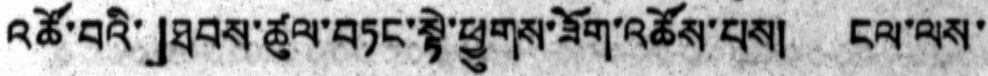འཚོ་བའི་」ཐབས་ཚུལ་བཏང་སྟེ་ཕྱུགས་ཟོག་འཚོས་པས། ངལ་ལས་
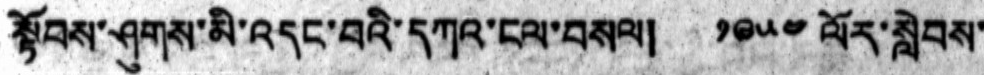སྟོབས་ཤུགས་མི་འདང་བའི་དཀའ་ངལ་བསལ། ༡༩༥༤ ལོར་སླེབས་
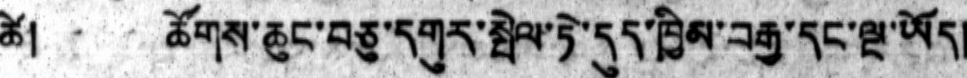ཚེ། ཚོགས་ཆུང་བཅུ་དགུར་སྤེལ་ཏེ་དུད་ཁྱིམ་བརྒྱ་དང་ལྔ་ཡོད།
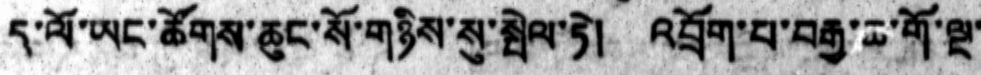ད་ལོ་ཡང་ཚོགས་ཆུང་སོ་གཉིས་སུ་སྤེལ་ཏེ། འབྲོག་པ་བརྒྱ་ཆ་གོ་ལྔ་
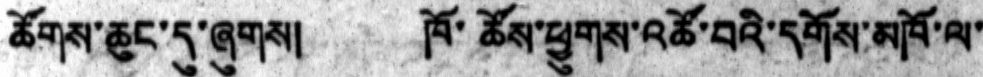ཚོགས་ཆུང་དུ་ཞུགས། ཁོ་ཚོས་ཕྱུགས་འཚོ་བའི་དགོས་མཁོ་ལ་
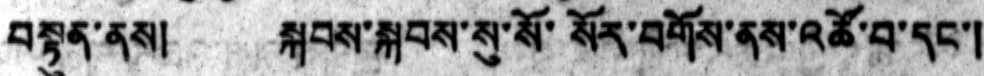བསྟུན་ནས། སྐབས་སྐབས་སུ་སོ་སོར་བགོས་ནས་འཚོ་བ་དང་།
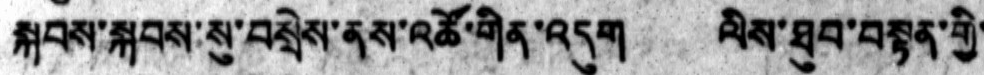སྐབས་སྐབས་སུ་བསྲེས་ནས་འཚོ་གིན་འདུག ལིས་ཐུབ་བསྟན་གྱི་
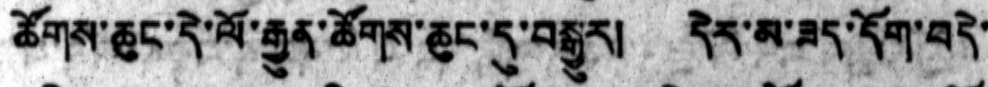ཚོགས་ཆུང་དེ་ལོ་རྒྱུན་ཚོགས་ཆུང་དུ་བསྒྱུར། དེར་མ་ཟད་དོག་བདེ་
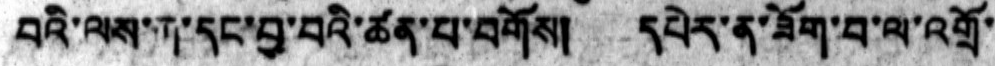བའི་ལས་ཀ་དང་བྱ་བའི་ཚན་པ་བགོས།   དཔེར་ན་ཟོག་བ་ལ་འགྲོ་
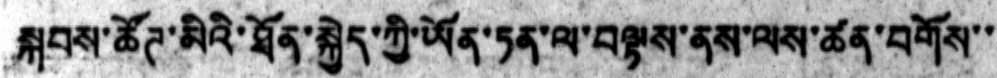སྐབས་ཚོཊ་མིའི་ཐོན་སྐྱེད་ཀྱི་ཡོན་ཏན་ལ་བལྟས་ནས་ལས་ཚན་བགོས་་
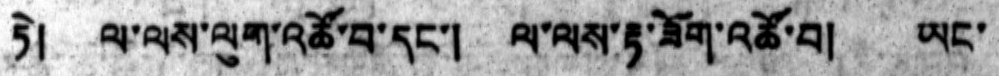ཏེ། ལ་ལས་ལུག་འཚོ་བ་དང་། ལ་ལས་རྟ་ཟོག་འཚོ་བ། ཡང་
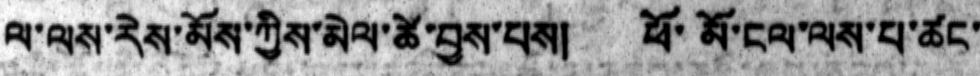ལ་ལས་རེས་མོས་ཀྱིས་མེལ་ཚེ་བྱས་པས། ཕོ་མོ་ངལ་ལས་པ་ཚང་
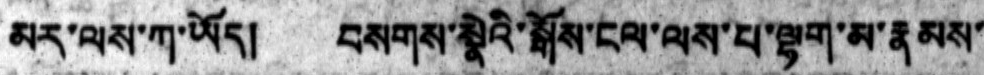མར་ལས་ཀ་ཡོད། བསགས་སྣེའི་སྒོས་ངལ་ལས་པ་ལྷག་མ་རྣམས་
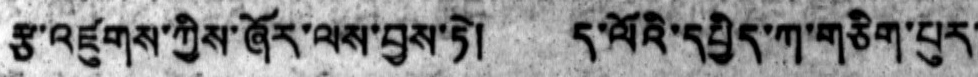རྩ་འཛུགས་ཀྱིས་ཞོར་ལས་བྱས་ཏེ། ད་ལོའི་དཔྱིད་ཀ་གཅིག་པུར་
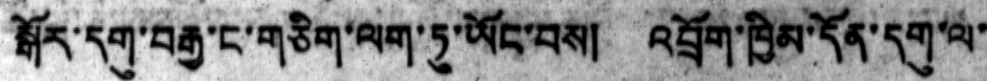སྒོར་དགུ་བརྒྱ་ང་གཅིག་ལག་ཏུ་ཡོང་བས། འབྲོག་ཁྱིམ་དོན་དགུ་ལ་
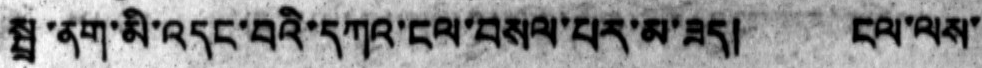སྦྲ་ནག་མི་འདང་བའི་དཀའ་ངལ་བསལ་པར་མ་ཟད།   ངལ་ལས་
